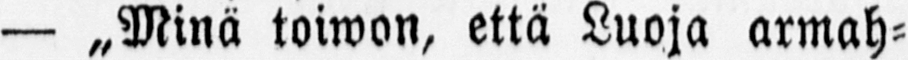— „Minä toiwon, että Luoja armah-
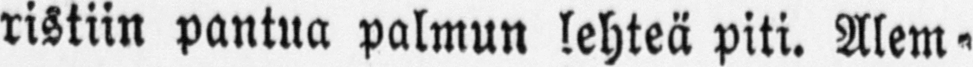ristiin pantua palmun lehteä piti. Alem-
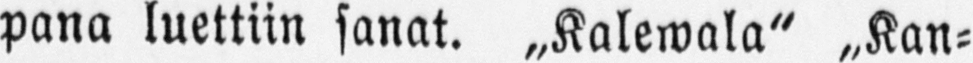pana luettiin sanat. „Kalewala" „Kan-
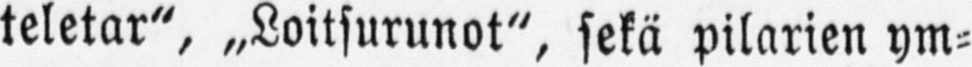teletar", „Loitsurunot", sekä pilarien ym-
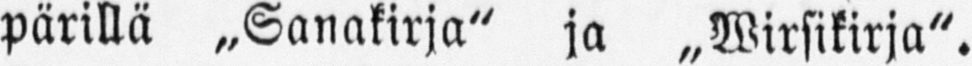pärillä „Sanakirja" ja „Wirsikirja".
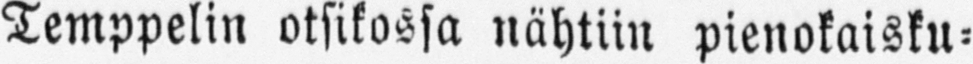Temppelin otsikossa nähtiin pienokaisku-
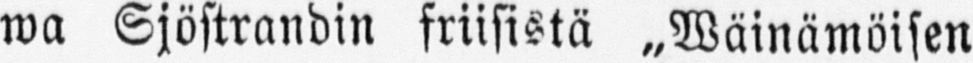wa Sjöstrandin friisistä „Wäinämöisen
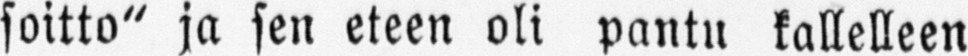soitto" ja sen eteen oli pantu kallelleen
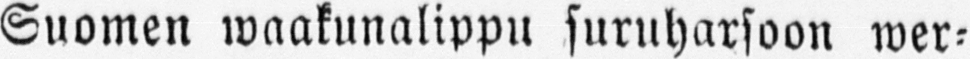Suomen waakunalippu suruharsoon wer-
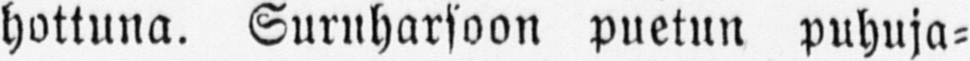hottuna. Suruharsoon puetun puhuja-
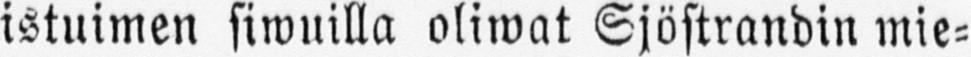istuimen siwuilla oliwat Sjöstrandin mie-
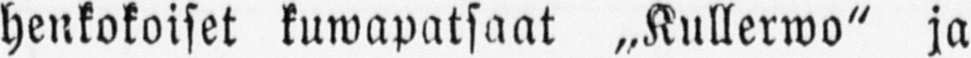henkokoiset kuwapatsaat „Kullerwo" ja
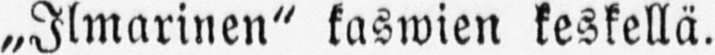»Ilmarinen" kaswien keskellä.
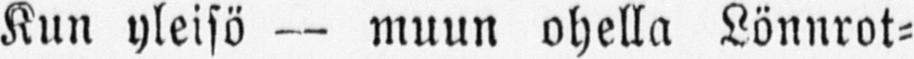Kun yleisö — muun ohella Lönnrot-
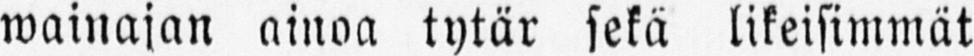wainajan ainoa tytär sekä likeisimmät
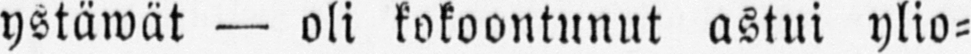ystäwät — oli kokoontunut astui ylio-
